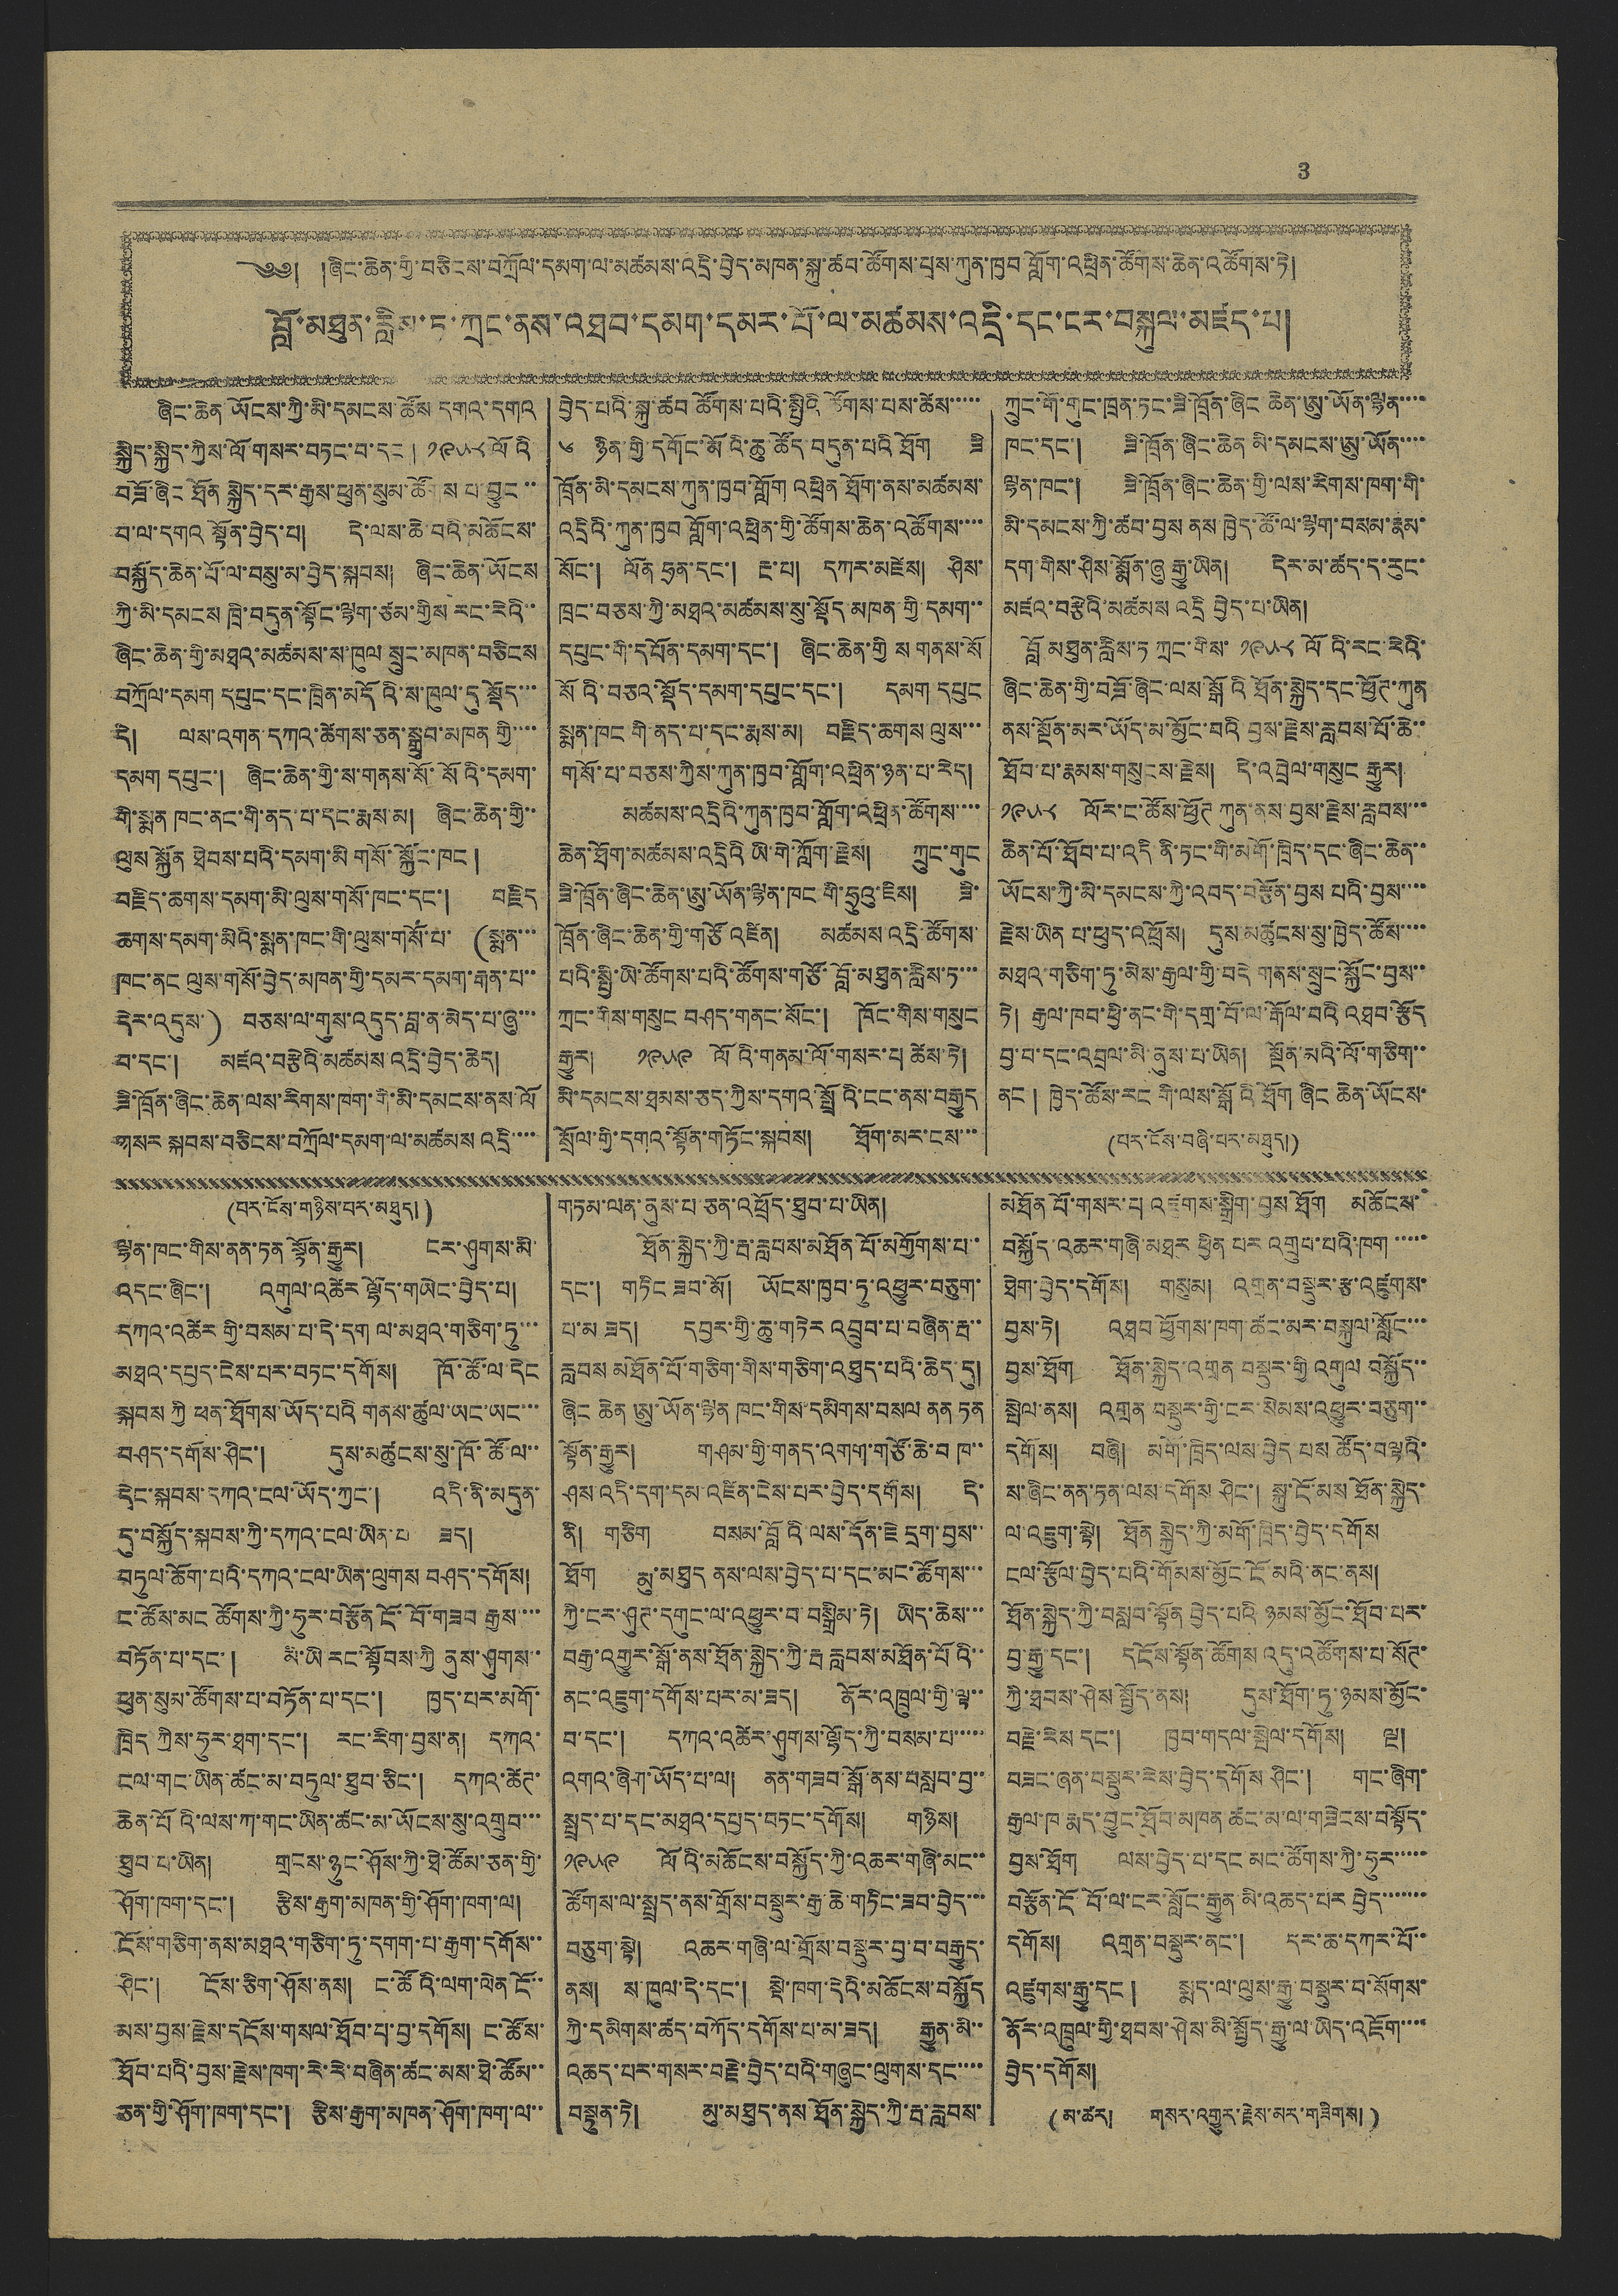3
༄༅། །ཞིང་ཆེན་གྱི་བཅིངས་བཀྲོལ་དམག་ལ་མཚམས་འདྲི་བྱེད་མཁན་སྐུ་ཚབ་ཚོགས་པས་ཀུན་ཁྱབ་གློག་འཕྲིན་ཚོགས་ཆེན་འཚོགས་ཏེ།
བློ་མཐུན་རླིས་ཏ་ཀྲང་ནས་འཐབ་དམག་དམར་པོ་ལ་མཚམས་འདྲི་དང་ངར་བསྐུལ་མཛད་པ།
ཞིང་ཆེན་ཡོངས་ཀྱི་མི་དམངས་ཚོས དགའ་དགའ
སྐྱིད་སྐྱིད་ཀྱིས་ལོ་གསར་བཏང་བ་དང་། ༡༩༥༨ ལོའི་
བཟོ་ཞིང ཐོན སྐྱེད་དར་རྒྱས་ཕུན་སུམ་ཚོགས པ་བྱུང་་
བ་ལ་དགའ སྟོན་བྱེད་པ། དེ་ལས་ཆེ་བའི་མཆོངས་
བསྐྱོད་ཆེན་པོ་ལ་བསུ་མ་བྱེད་སྐབས། ཞིང་ཆེན་ཡོངས
ཀྱི་མི་དམངས ཁྲི་བདུན་སྟོང་ལྷག་ཙམ་གྱིས རང་རེའི་་
ཞིང་ཆེན་གྱི་མཐའ་མཚམས་ས་ཁུལ སྲུང་མཁན་བཅིངས
བཀྲོལ་དམག དཔུང་དང་ཁྲིན་མདོའི་ས་ཁུལ་དུ སྡོད་་་
དེ། ལས་འགན་དཀའ་ཚེགས་ཅན་སྒྲུབ་མཁན གྱི་་་་
དམག དཔུང་། ཞིང་ཆེན་གྱི་ས་གནས་སོ་སོའི་དམག་
གི་སྨན ཁང་ནང་གི་ནད་པ་དང་རྨས་མ། ཞིང་ཆེན་གྱི་་
ལུས སྐྱོན ཐེབས་པའི་དམག་མི གསོ་སྐྱོང་ཁང །
བརྗིད་ཆགས་དམག་མི་ལུས་གསོ་ཁང་དང་། བརྗིད
ཆགས་དམག་མིའི་སྨན་ཁང་གི་ལུས་གསོ་པ་ (སྨན་་་
ཁང་ནང ལུས་གསོ་བྱེད་མཁན་གྱི་དམར་དམག་རྒན་པ་་
དེར་འདུས་) བཅས་ལ་གུས་འདུད་བླ་ན་མེད་པ་ཞུ་་་
བ་དང་། མཛའ་བརྩེའི་མཚམས་འདྲི་བྱེད་ཆེད།
ཟི་ཁྲོན་ཞིང་ཆེན་ལས་རིགས་ཁག་གི་མི་དམངས་ནས་ལོ
གསར སྐབས་བཅིངས་བཀྲོལ་དམག་ལ་མཚམས འདྲི་་་་
བྱེད་པའི་སྐུ་ཚབ ཚོགས་པའི་སྤྱིའི་ཚོགས་པས་ཚེས་་་་་
༦ ཉིན་གྱི་དགོང་མོའི་ཆུ་ཚོད་བདུན་པའི ཐོག ཟི
ཁྲོན་མི་དམངས་ཀུན་ཁྱབ་གློག འཕྲིན ཐོག་ནས་མཚམས་
འདྲིའི་ཀུན་ཁྱབ གློག་འཕྲིན་གྱི་ཚོགས་ཆེན་འཚོགས་་་་
སོང་། ལོན ཧྲན་དང་། རྔ་པ། དཀར་མཛེས། ཤིས་
ཁྲང་བཅས་ཀྱི་མཐའ་མཚམས་སུ་སྡོད་མཁན གྱི་དམག་་
དཔུང་གི་དཔོན་དམག་དང་། ཞིང་ཆེན་གྱི ས གནས་སོ
སོའི་བཅའ་སྡོད་དམག་དཔུང་དང་། དམག དཔུང
སྨན་ཁང གི་ནད་པ་དང་རྨས་མ། བརྗིད་ཆགས་ལུས་་་
གསོ་པ་བཅས་ཀྱིས་ཀུན་ཁྱབ་གློག་འཕྲིན་ཉན་པ་རེད།
མཚམས་འདྲིའི་ཀུན་ཁྱབ་གློག་འཕྲིན་ཚོགས་་་་
ཆེན་ཐོག་མཚམས་འདྲིའི ཡི་གེ་ཀློག་རྗེས། ཀྲུང་གུང
ཟི་ཁྲོན་ཞིང་ཆེན་ཨུ་ཡོན་ལྷན་ཁང གི་ཧྲུའུ་ཇིས། ཟི་
ཁྲོན་ཞིང་ཆེན་གྱི་གཙོ་འཛིན། མཚམས་འདྲི་ཚོགས་
པའི་སྤྱི་ཡི་ཚོགས་པའི་ཚོགས་གཙོ་བློ་མཐུན་རླིས་ཏ་་་
ཀྲང་གིས་གསུང བཤད་གནང་སོང་། ཁོང་གིས་གསུང
རྒྱུར། ༡༩༥༩ ལོའི་གནམ་ལོ་གསར་པ ཚེས་ཏེ།
མི་དམངས་ཐབས་ཅད་ཀྱིས་དགའ་སྤྲོའི་ངང་ནས་བརྒྱུད
སྲོལ་གྱི་དགའ་སྟོན་གཏོང་སྐབས། ཐོག་མར་ངས་་་
ཀྲུང་གོ་གུང་ཁྲན་ཏང་ཟི་ཁྲོན་ཞིང ཆེན་ཨུ་ཡོན་ལྷན་་་་
ཁང་དང་། ཟི་ཁྲོན་ཞིང་ཆེན མི་དམངས་ཨུ་ཡོན་་་་
ལྷན་ཁང་། ཟི་ཁྲོན་ཞིང་ཆེན་གྱི་ལས་རིགས་ཁག་གི་
མི་དམངས་ཀྱི་ཚབ་བྱས ནས་ཁྱེད་ཚོ་ལ་ལྷག་བསམ་རྣམ་
དག་གིས་ཤིས་སྨོན་ཞུ རྒྱུ་ཡིན། དེར་མ་ཚད་ད་རུང་
མཛའ་བརྩེའི་མཚམས འདྲི བྱེད་པ་ཡིན།
བློ མཐུན་རླིས་ཏ ཀྲང་གིས་ ༡༩༥༩ ལོའི་རང་རེའི་
ཞིང་ཆེན་གྱི་བཟོ་ཞིང་ལས་སྒོའི ཐོན་སྐྱེད་དང་ཕྱོཊ་ཀུན
ནས་སྔོན་མར་ཡོད་མ་མྱོང་བའི་བྱས་རྗེས་རླབས་པོ་ཆེ་་
ཐོབ་པ་རྣམས་གསུངས་རྗེས། དེ་འབྲེལ་གསུང རྒྱུར།
༡༩༥༨ ལོར་ང་ཚོས་ཕྱོཊ ཀུན་ནས་བྱས་རྗེས་རླབས་་་
ཆེན་པོ་ཐོབ་པ་འདི་ནི་ཏང་གི་མགོ་ཁྲིད་དང་ཞིང་ཆེན་་
ཡོངས་ཀྱི་མི་དམངས་ཀྱི་འབད་བརྩོན་བྱས པའི་བྱས་་་་
རྗེས་ཡིན པ་ཕུད་འཕྲོས། དུས་མཚུངས་སུ་ཁྱེད་ཚོས་་་་
མཐའ་གཅིག་ཏུ་མེས་རྒྱལ་གྱི་བདེ གནས་སྲུང་སྐྱོང་བྱས་་
ཏེ། རྒྱལ་ཁབ་ཕྱི་ནང་གི་དགྲ་བོ་ལ་རྒོལ་བའི་འཐབ་རྩོད
བྱ་བ་དང་འབྲལ་མི་ནུས་པ་ཡིན། སྔོན་མའི་ལོ་གཅིག་་
ནང ། ཁྱེད་ཚོས་རང གི་ལས་སྒོའི ཐོག ཞིང ཆེན་ཡོངས་
(པར་ངོས་བཞི་པར་མཐུད།)
(པར་ངོས་གཉིས་པར་མཐུད།)
ལྷན་ཁང་གིས་ནན་ཏན སྟོན་རྒྱུར། ངར་ཤུགས་མི་
འདང་ཞིང་། འགུལ་འཚེར ལྷོད་གཡེང་བྱེད་པ།
དཀའ་འཚེར་གྱི་བསམ་པ་དེ་དག ལ་མཐའ་གཅིག་ཏུ་་་
མཐའ་དཔྱད་ངེས་པར་བཏང་དགོས། ཁོ་ཚོ་ལ་དེང
སྐབས ཀྱི ཕན ཐོགས་ཡོད་པའི གནས་ཚུལ་ཡང་ཡང་་་
བཤད་དགོས་ཤིང་། དུས་མཚུངས་སུ་ཁོ་ཚོ་ལ་་
དེང་སྐབས་དཀའ་ངལ་ཡོད་ཀྱང་། འདི་ནི་མདུན་
དུ་བསྐྱོད་སྐབས་ཀྱི་དཀའ་ངལ་ཡིན་པ་མ་ཟད།
བཏུལ་ཆོག་པའི་དཀའ་ངལ་ཡིན་ལུགས བཤད་དགོས།
ང་ཚོས་མང ཚོགས་ཀྱི་ཧུར་བརྩོན ངོ་བོ་གཟབ རྒྱས་་་་
བཏོན་པ་དང་། མི་ཡི རང་སྟོབས་ཀྱི ནུབ་ཤུགས་་
ཕུན་སུམ་ཚོགས་པ་བཏོན་པ་དང་། ཁྱད་པར་མགོ་
ཁྲིད ཀྱིས་ཧུར་ཐག་དང་། རང་ཏིག་བྱས་ན། དཀའ་
ངལ་གང་ཡིན་ཚང་མ་བཏུལ་ཐུབ་ཅིང་། དཀའ་ཚེཊ་
ཆེན་པོའི་ལས་ཀ་གང་ཡིན་ཚང་མ་ཡོངས་སུ་འགྲུབ་་་
ཐུབ་པ་ཡིན། གྲངས་ཉུང་ཤོས་ཀྱི་ཐེ་ཚོམ་ཅན་གྱི་
ཤོག་ཁག་དང་། རྩིས་རྒྱག་མཁན་གྱི་ཤོག་ཁག་ལ།
ངོས་གཅིག་ནས་མཐའ་གཅིག་ཏུ་དགག་པ་རྒྱག་དགོས་་
ཤིང་། ངོས་ཅིག་ཤོས་ནས། ང་ཚོའི་ལག་ལེན ངོ་་
མས་བྱས་རྗེས་དངོས་གསལ་ཐོབ་པ་བྱ་དགོས། ང་ཚོས་
ཐོབ་པའི་བྱས་རྗེས་ཁག་རེ་རེ་བཞིན་ཚང་མས་ཐེ་ཚོམ་་
ཅན་གྱི་ཤོག་ཁག་དང་། རྩིས་རྒྱག་མཁན་ཤོག་ཁག་ལ་་
གཏམ་ལན་ནུས་པ་ཅན་འཕྲོད་ཐུབ་པ་ཡིན།
ཐོན་སྐྱེད་ཀྱི་རྦ་རླབས་མཐོན པོ་མགྱོགས་པ་་
དང་། གཏིང ཟབ་མོ། ཡོངས་ཁྱབ་ཏུ་འཕྱུར་བཅུག་
པ་མ ཟད། དབྱར་གྱི་ཆུ་གཏེར འབྲུབ་པ་བཞིན་རྦ་་
རླབས མཐོན་པོ་གཅིག་གིས་གཅིག་འཐུད་པའི་ཆེད་དུ།
ཞིང ཆེན ཨུ་ཡོན་ལྷན ཁང་གིས་དམིགས་བསལ ནན ཏན
སྟོན་རྒྱུར། གཤམ་གྱི་གནད་འགག་གཙོ་ཆེ་བ ཁ་་
ཤས་འདི་དག་དམ་འཛིན་ངེས་པར་བྱེད་དགོས། དེ་
ནི། གཅིག བསམ་བློའི་ལས་དོན་ཇེ དྲག་བྱས་་
ཐོག མུ་མཐུད ནས་ལས་བྱེད་པ་དང་མང་ཚོགས་་་
ཀྱི་ངར་ཤུཊ་དགུང་ལ་འཕྱུར་བ་བསྒྲིམ་ཏེ། ཡིད་ཆེས་་་
བརྒྱ་འགྱུར་སྒོ་ནས་ཐོན་སྐྱེད་ཀྱི་རྦ རླབས་མཐོན་པོའི་་
ནང་འཇུག་དགོས་པར་མ་ཟད། ནོར་འཁྲུལ་གྱི་ལྟ་་
བ་དང་། དཀའ་འཚེར་ཤུགས་ལྷོད་ཀྱི་བསམ་པ་་་་་
འགའ་ཞིག་ཡོད་པ་ལ། ནན་གཟབ་སྒོ་ནས་བསླབ་བྱ་་
སྤྲད་པ་དང་མཐའ་དཔྱད་བཏང་དགོས། གཉིས།
༡༩༥༩ ལོའི་མཆོངས་བསྐྱོད་ཀྱི་འཆར་གཞི་མང་་
ཚོགས་ལ་སྤྲད་ནས་གྲོས་བསྡུར་རྒྱ་ཆེ་གཏིང་ཟབ་བྱེད་་་
བཅུག་སྟེ། འཆར་གཞི་ལ་གྲོས་བསྡུར་བྱ་བ་བརྒྱུད་
ནས། ས་ཁུལ་དེ་དང་། སྡེ་ཁག་དེའི་མཆོངས་བསྐྱོད
ཀྱི་དམིགས་ཚད་བཀོད་དགོས་པ་མ་ཟད། རྒྱུན་མི་་
འཆད་པར་གསར་བརྗེ་བྱེད་པའི་གཞུང་ལུགས་དང་་་་
བསྟུན་ཏེ། མུ་མཐུད་ནས ཐོན་སྐྱེད་ཀྱི་རྦ་རླབས་
མཐོན པོ་གསར་པ འཛུགས་སྒྲིག་བྱས་ཐོག མཆོངས་
བསྐྱོད་འཆར་གཞི་མཐར ཕྱིན པར འགྲུབ་པའི་ཁག་་་་་
ཐེག་བྱེད་དགོས། གསུམ། འགྲན་བསྡུར་རྩ་འཛུགས་
བྱས་ཏེ། འཐབ ཕྱོགས་ཁག་ཚང་མར་བསྐུལ་སློང་་་
བྱས་ཐོག ཐོན་སྐྱེད་འགྲན བསྡུར་གྱི འགུལ བསྐྱོད་་
སྤེལ་ནས། འགྲན བསྡུར་གྱི་ངར་སེམས་འཕྱུར་བཅུག་་
དགོས། བཞི། མགོ་ཁྲིད་ལས་བྱེད་པས ཚོད་བལྟའི་
ས་ཞིང་ནན་ཏན་ལས་དགོས ཤིང་། སྐུ་ངོ་མས ཐོན་སྐྱེད་
ལ་འཇུག་སྟེ། ཐོན སྐྱེད་ཀྱི་མགོ་ཁྲིད་བྱེད་དགོས
ངལ་རྩོལ་བྱེད་པའི་གོམས་མྱོང་ངོ་མའི་ནང་ནས།
ཐོན་སྐྱེད་ཀྱི་བསླབ་སྟོན བྱེད་པའི ཉམས་མྱོང་ཐོབ་པར་
བྱ་རྒྱུ་དང་། དངོས་སྟོན་ཚོགས འདུ་འཚོགས་པ་སོཊ་
ཀྱི་ཐབས་ཤེས སྤྱོད་ནས། དུས་ཐོག་ཏུ་ཉམས་མྱོང་
བརྗེ་རེས དང་། ཁྱབ་གདལ་སྤེལ་དགོས། ལྔ།
བཟང་ཞན་བསྡུར་རེས་བྱེད་དགོས ཤིང་། གང་ཞིག་
རྒྱལ་ཁ རྨད་བྱུང་ཐོབ་མཁན ཚང་མ་ལ་གཟེངས་བསྟོད་
བྱས་ཐོག ལས་བྱེད་པ་དང མང་ཚོགས་ཀྱི་ཧུར་་་་་
བརྩོན་ངོ་བོ་ལ་ངར་སློང་རྒྱུན་མི་འཆད་པར བྱེད་་་་་་་
དགོས། འགྲན་བསྡུར་ནང་། དར་ཆ་དཀར་པོ་་
འཛུགས་རྒྱུ་དང ། སྨད་ལ་ལུས་རྒྱུ་བསྡུར་བ་སོགས་
ནོར་འཁྲུལ་གྱི་ཐབས་ཤེས་མི་སྤྱོད་རྒྱུ་ལ་ཡིད་འཇོག་་་་
བྱེད་དགོས།
(མ་ཚར། གསར་འགྱུར་རྗེས་མར་གཟིགས།)
